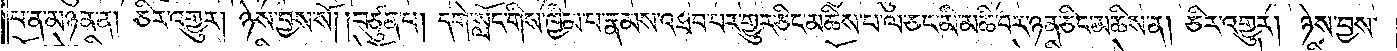པ་ན་མཉན་ན། ཅིར་འགྱུར། ཉེས་བྱས་སོ། །བཙུན་པ། དགེ་སློང་གིས་ཁྱིམ་པ་རྣམས་འཐབ་པར་གྱུར་ཅིང་མཆིས་པ་ལ་ཅང་མི་མཆི་བར་ཉན་ཅིང་མཆིས་ན། ཅིར་འགྱུར། ཉེས་བྱས་
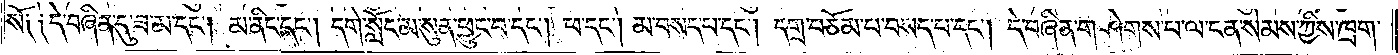སོ། །དེ་བཞིན་དུ་ཟ་མ་དང༌། མ་ནིང་དང༌། དགེ་སློང་མ་སུན་ཕྱུང་བ་དང༌། ཕ་དང༌། མ་བསད་པ་དང༌། དགྲ་བཅོམ་པ་བསད་པ་དང༌། དེ་བཞིན་གཤེགས་པ་ལ་ངན་སེམས་ཀྱིས་ཁྲག་
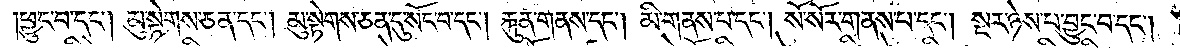།ཕྱུང་བ་དང༌། མུ་སྟེགས་ཅན་དང༌། མུ་སྟེགས་ཅན་དུ་སོང་བ་དང༌། རྐུན་གནས་དང༌། མི་གནས་པ་དང༌། སོ་སོར་གནས་པ་དང༌། སྔར་ཉེས་པ་བྱུང་བ་དང༌།
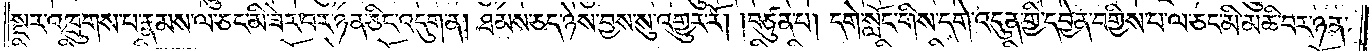སྔར་འཁྲུགས་པ་རྣམས་ལ་ཅང་མི་ཟེར་བར་ཉན་ཅིང་འདུག་ན། ཐམས་ཅད་ཉེས་བྱས་སུ་འགྱུར་རོ། །བཙུན་པ། དགེ་སློང་གིས་དགེ་འདུན་གྱི་དབྱེན་བགྱིས་པ་ལ་ཅང་མི་མཆི་བར་ཉན་
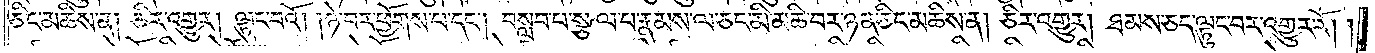ཅིང་མཆིས་ན། ཅིར་འགྱུར། ལྟུང་བའོ། །ཉེ་བར་ཕྱོགས་པ་དང༌། བསླབ་པ་སྩལ་པ་རྣམས་ལ་ཅང་མི་མཆི་བར་ཉན་ཅིང་མཆིས་ན། ཅིར་འགྱུར། ཐམས་ཅད་ལྟུང་བར་འགྱུར་རོ། །
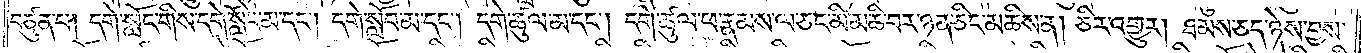བཙུན་པ། དགེ་སློང་གིས་དགེ་སློང་མ་དང༌། དགེ་སློབ་མ་དང༌། དགེ་ཚུལ་མ་དང༌། དགེ་ཚུལ་ཕ་རྣམས་ལ་ཅང་མི་མཆི་བར་ཉན་ཅིང་མཆིས་ན། ཅིར་འགྱུར། ཐམས་ཅད་ཉེས་བྱས་
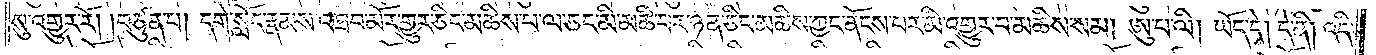སུ་འགྱུར་རོ། །བཙུན་པ། དགེ་སློང་རྣམས་འཐབ་མོར་གྱུར་ཅིང་མཆིས་པ་ལ་ཅང་མི་མཆི་བར་ཉན་ཅིང་མཆིས་ཀྱང་ནོངས་པར་མི་འགྱུར་བ་མཆིས་སམ། ཨུ་པ་ལི། ཡོད་དེ། དེ་ནི། འདི་
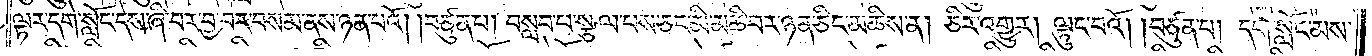ལྟར་དགེ་སློང་དེས་ཞི་བར་བྱ་བར་བསམ་ནས་ཉན་པའོ། །བཙུན་པ། བསླབ་པ་སྩལ་པས་ཅང་མི་མཆི་བར་ཉན་ཅིང་མཆིས་ན། ཅིར་འགྱུར། ལྟུང་བའོ། །བཙུན་པ། དགེ་སློང་མས་
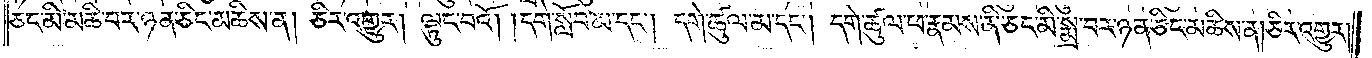ཅང་མི་མཆི་བར་ཉན་ཅིང་མཆིས་ན། ཅིར་འགྱུར། ལྟུང་བའོ། །དགེ་སློབ་མ་དང༌། དགེ་ཚུལ་མ་དང༌། དགེ་ཚུལ་ཕ་རྣམས་ནི་ཅང་མི་སྨྲ་བར་ཉན་ཅིང་མཆིས་ན། ཅིར་འགྱུར།
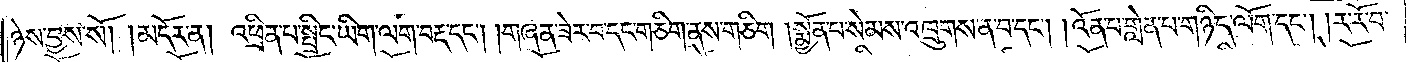ཉེས་བྱས་སོ།    །མདོར་ན། འཕྲིན་པ་སྤྲིང་ཡིག་ལག་བརྡ་དང༌། །གཞན་ཟེར་བ་དང་གཅིག་ནས་གཅིག །སྨྱོན་པ་སེམས་འཁྲུགས་ན་བ་དང༌། །འོན་པ་གླེན་པ་གཉིད་ལོག་དང༌། །ར་རོ་བ་
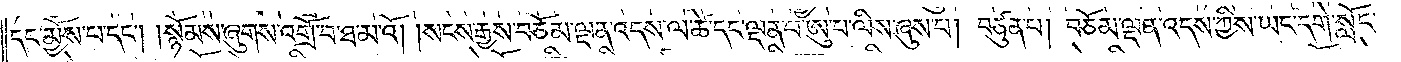དང་མྱོས་པ་དང༌། །སྙོམས་ཞུགས་འགྲོ་བ་ཐ་མའོ། །སངས་རྒྱས་བཅོམ་ལྡན་འདས་ལ་ཚེ་དང་ལྡན་པ་ཨུ་པ་ལིས་ཞུས་པ། བཙུན་པ། བཅོམ་ལྡན་འདས་ཀྱིས་ཡང་དགེ་སློང་
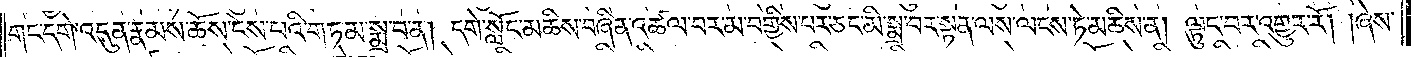གང་དགེ་འདུན་རྣམས་ཆོས་ངེས་པའི་གཏམ་སྨྲ་བ་ན། དགེ་སློང་མཆིས་བཞིན་འཚལ་བར་མ་བགྱིས་པར་ཅང་མི་སྨྲ་བར་སྟན་ལས་ལངས་ཏེ་མཆིས་ན། ལྟུང་བར་འགྱུར་རོ། །ཞེས་
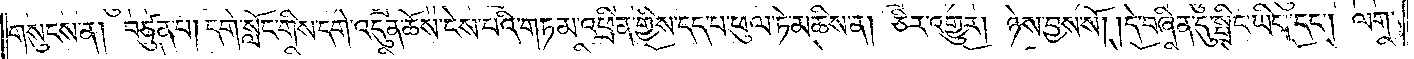གསུངས་ན། བཙུན་པ། དགེ་སློང་གིས་དགེ་འདུན་ཆོས་ངེས་པའི་གཏམ་འཕྲིན་གྱིས་དད་པ་ཕུལ་ཏེ་མཆིས་ན། ཅིར་འགྱུར། ཉེས་བྱས་སོ། །དེ་བཞིན་དུ་སྤྲིང་ཡིག་དང༌། ལག་
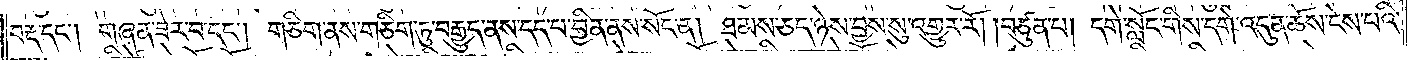བརྡ་དང༌། གཞན་ཟེར་བ་དང༌། གཅིག་ནས་གཅིག་ཏུ་བརྒྱུད་ནས་དད་པ་བྱིན་ནས་སོང་ན། ཐམས་ཅད་ཉེས་བྱས་སུ་འགྱུར་རོ། །བཙུན་པ། དགེ་སློང་གིས་དགེ་འདུན་ཆོས་ངེས་པའི་
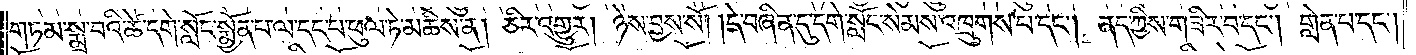གཏམ་སྨྲ་བའི་ཚེ་དགེ་སློང་སྨྱོན་པ་ལ་དད་པ་ཕུལ་ཏེ་མཆིས་ན། ཅིར་འགྱུར། ཉེས་བྱས་སོ། །དེ་བཞིན་དུ་དགེ་སློང་སེམས་འཁྲུགས་པ་དང༌། ནད་ཀྱིས་གཟིར་བ་དང༌། གླེན་པ་དང༌།
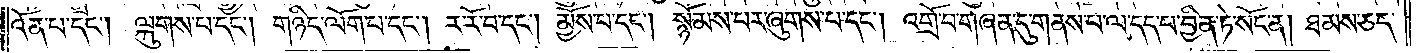འོན་པ་དང༌། ལྐུགས་པ་དང༌། གཉིད་ལོག་པ་དང༌། ར་རོ་བ་དང༌། མྱོས་པ་དང༌། སྙོམས་པར་ཞུགས་པ་དང༌། འགྲོ་བ་གཞན་དུ་གནས་པ་ལ་དད་པ་བྱིན་ཏེ་སོང་ན། ཐམས་ཅད་
